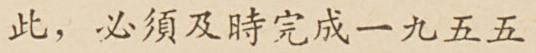此，必須及時完成一九五五
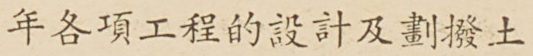年各項工程的設計及劃撥土
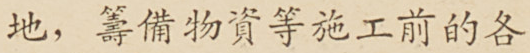地，籌備物資等施工前的各
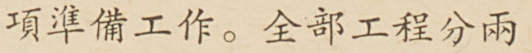項準備工作。全部工程分兩
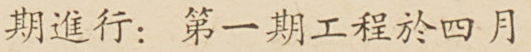期進行：第一期工程於四月
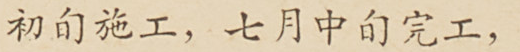初旬施工，七月中旬完工，
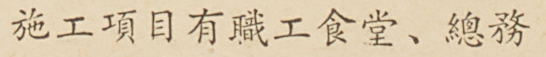施工項目有職工食堂、總務
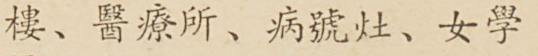樓、醫療所、病號灶、女學
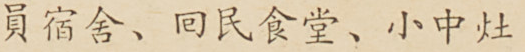員宿舍、囘民食堂、中小灶
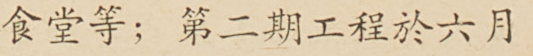食堂等；第二期工程於六月
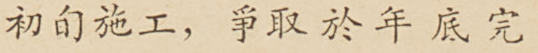初旬施工，爭取於年底完
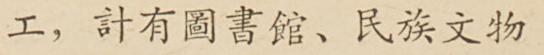工，計有圖書館、民族文物
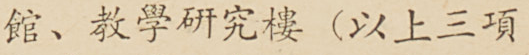館、教學研究樓（以上三項
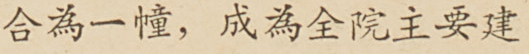合爲一幢，成爲全院主要建
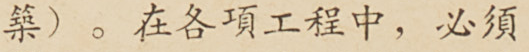築）。在各項工程中，必須
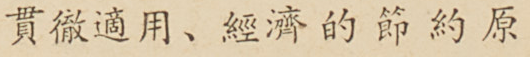貫徹適用、經濟的節約原
